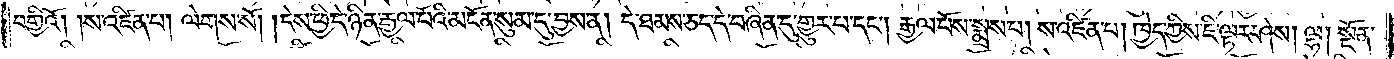བགྱིའོ། །ས་འཛིན་པ། ལེགས་སོ། །དེས་ཕྱི་དེ་ཉིན་རྒྱལ་པོའི་མངོན་སུམ་དུ་བྱས་ན། དེ་ཐམས་ཅད་དེ་བཞིན་དུ་གྱུར་པ་དང༌། རྒྱལ་པོས་སྨྲས་པ། ས་འཛིན་པ། ཁྱེད་ཀྱིས་ཇི་ལྟར་ཤེས། ལྷ། སྔོན་
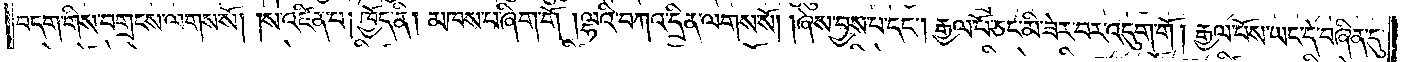བདག་གིས་བགྲངས་ལགས་སོ། །ས་འཛིན་པ། ཁྱོད་ནི། མཁས་པ་ཞིག་གོ །ལྷའི་དཀའ་དྲིན་ལགས་སོ། །ཞེས་བྱས་པ་དང༌། རྒྱལ་པོ་ཅང་མི་ཟེར་བར་འདུག་གོ །རྒྱལ་པོས་ཡང་དེ་བཞིན་དུ་
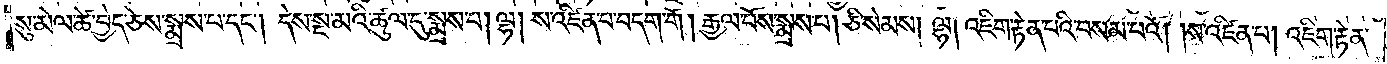སུ་མེལ་ཚེ་བྱེད་ཅེས་སྨྲས་པ་དང༌། དེས་སྔ་མའི་ཚུལ་དུ་སྨྲས་པ། ལྷ། ས་འཛིན་པ་བདག་གོ །རྒྱལ་པོས་སྨྲས་པ། ཅི་སེམས། ལྷ། འཇིག་རྟེན་པའི་བསམ་པའོ། །ས་འཛིན་པ། འཇིག་རྟེན་
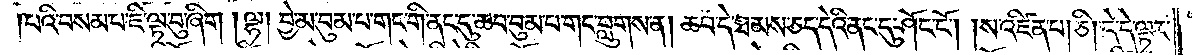པའི་བསམ་པ་ཇི་ལྟ་བུ་ཞིག །ལྷ། བྱེ་མ་བུམ་པ་གང་གི་ནང་དུ་ཆབ་བུམ་པ་གང་བླུགས་ན། ཆབ་དེ་ཐམས་ཅད་དེའི་ནང་དུ་ཤོང་ངོ༌། །ས་འཛིན་པ། ཅི། དེ་དེ་ལྟར་
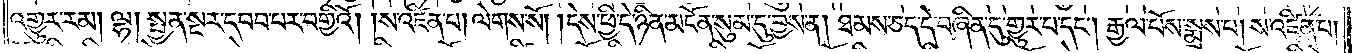འགྱུར་རམ། ལྷ། སྤྱན་སྔར་དབབ་པར་བགྱིའོ། །ས་འཛིན་པ། ལེགས་སོ། །དེས་ཕྱི་དེ་ཉིན་མངོན་སུམ་དུ་བྱས་ན། ཐམས་ཅད་དེ་བཞིན་དུ་གྱུར་པ་དང༌། རྒྱལ་པོས་སྨྲས་པ། ས་འཛིན་པ།
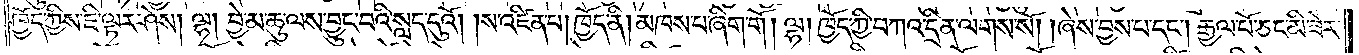ཁྱོད་ཀྱིས་ཇི་ལྟར་ཤེས། ལྷ། བྱེ་མ་ཆུ་ལས་བྱུང་བའི་སླད་དུའོ། །ས་འཛིན་པ། ཁྱོད་ནི། མཁས་པ་ཞིག་གོ །ལྷ། ཁྱོད་ཀྱི་བཀའ་དྲིན་ལགས་སོ། །ཞེས་བྱས་པ་དང༌། རྒྱལ་པོ་ཅང་མི་ཟེར་
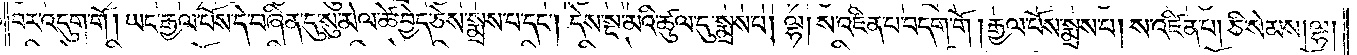བར་འདུག་གོ །ཡང་རྒྱལ་པོས་དེ་བཞིན་དུ་སུ་མེལ་ཚེ་བྱེད་ཅེས་སྨྲས་པ་དང༌། དེས་སྔ་མའི་ཚུལ་དུ་སྨྲས་པ། ལྷ། ས་འཛིན་པ་བདག་གོ །རྒྱལ་པོས་སྨྲས་པ། ས་འཛིན་པ། ཅི་སེམས། ལྷ།
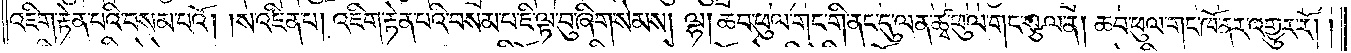འཇིག་རྟེན་པའི་བསམ་པའོ། །ས་འཛིན་པ། འཇིག་རྟེན་པའི་བསམ་པ་ཇི་ལྟ་བུ་ཞིག་སེམས། ལྷ། ཆབ་ཕུལ་གང་གི་ནང་དུ་ལན་ཚྭ་ཕུལ་གང་སྩལ་ན། ཆབ་ཕུལ་གང་ཁོ་ནར་འགྱུར་རོ། །
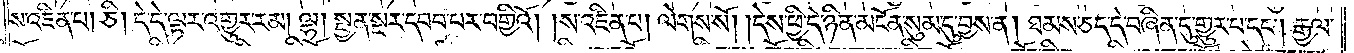ས་འཛིན་པ། ཅི། དེ་དེ་ལྟར་འགྱུར་རམ། ལྷ། སྤྱན་སྔར་དབབ་པར་བགྱིའོ། །ས་འཛིན་པ། ལེགས་སོ། །དེས་ཕྱི་དེ་ཉིན་མངོན་སུམ་དུ་བྱས་ན། ཐམས་ཅད་དེ་བཞིན་དུ་གྱུར་པ་དང༌། རྒྱལ་
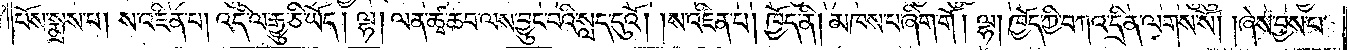པོས་སྨྲས་པ། ས་འཛིན་པ། འདི་ལ་རྒྱུ་ཅི་ཡོད། ལྷ། ལན་ཚྭ་ཆབ་ལས་བྱུང་བའི་སླད་དུའོ། །ས་འཛིན་པ། ཁྱོད་ནི། མཁས་པ་ཞིག་གོ །ལྷ། ཁྱོད་ཀྱི་བཀའ་དྲིན་ལགས་སོ། །ཞེས་བྱས་པ་
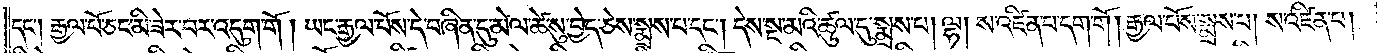དང༌། རྒྱལ་པོ་ཅང་མི་ཟེར་བར་འདུག་གོ །ཡང་རྒྱལ་པོས་དེ་བཞིན་དུ་མེལ་ཚེ་སུ་བྱེད་ཅེས་སྨྲས་པ་དང༌། དེས་སྔ་མའི་ཚུལ་དུ་སྨྲས་པ། ལྷ། ས་འཛིན་པ་དག་གོ །རྒྱལ་པོས་སྨྲས་པ། ས་འཛིན་པ།
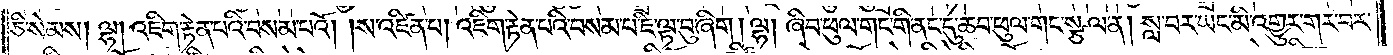ཅི་སེམས། ལྷ། འཇིག་རྟེན་པའི་བསམ་པའོ། །ས་འཛིན་པ། འཇིག་རྟེན་པའི་བསམ་པ་ཇི་ལྟ་བུ་ཞིག །ལྷ། ཞིབ་ཕུལ་གང་གི་ནང་དུ་ཆབ་ཕུལ་གང་སྩལ་ན། སླ་བར་ཡང་མི་འགྱུར་གར་བར་
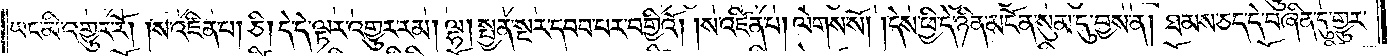ཡང་མི་འགྱུར་རོ། །ས་འཛིན་པ། ཅི། དེ་དེ་ལྟར་འགྱུར་རམ། ལྷ། སྤྱན་སྔར་དབབ་པར་བགྱིའོ། །ས་འཛིན་པ། ལེགས་སོ། །དེས་ཕྱི་དེ་ཉིན་མངོན་སུམ་དུ་བྱས་ན། ཐམས་ཅད་དེ་བཞིན་དུ་གྱུར་
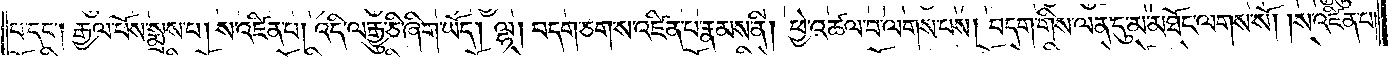པ་དང༌། རྒྱལ་པོས་སྨྲས་པ། ས་འཛིན་པ། འདི་ལ་རྒྱུ་ཅི་ཞིག་ཡོད། ལྷ། བདག་ཅག་ས་འཛིན་པ་རྣམས་ནི། ཕྱེ་འཚལ་བ་ལགས་པས། བདག་གིས་ལན་དུ་མ་མཐོང་ལགས་སོ། །ས་འཛིན་པ།
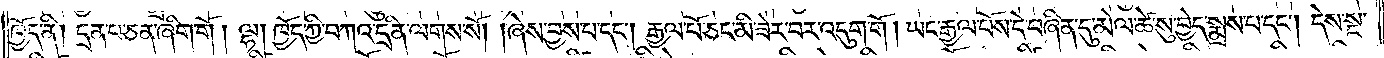ཁྱོད་ནི། དྲན་པ་ཅན་ཞིག་གོ །ལྷ། ཁྱོད་ཀྱི་བཀའ་དྲིན་ལགས་སོ། །ཞེས་བྱས་པ་དང༌། རྒྱལ་པོ་ཅང་མི་ཟེར་བར་འདུག་གོ །ཡང་རྒྱལ་པོས་དེ་བཞིན་དུ་མེལ་ཚེ་སུ་བྱེད་སྨྲས་པ་དང༌། དེས་སྔ་
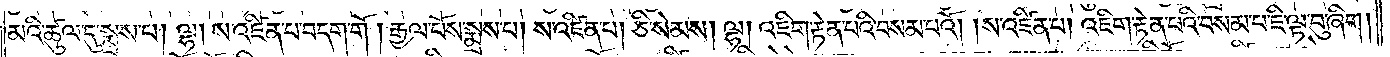མའི་ཚུལ་དུ་སྨྲས་པ། ལྷ། ས་འཛིན་པ་བདག་གོ །རྒྱལ་པོས་སྨྲས་པ། ས་འཛིན་པ། ཅི་སེམས། ལྷ། འཇིག་རྟེན་པའི་བསམ་པའོ། །ས་འཛིན་པ། འཇིག་རྟེན་པའི་བསམ་པ་ཇི་ལྟ་བུ་ཞིག །
